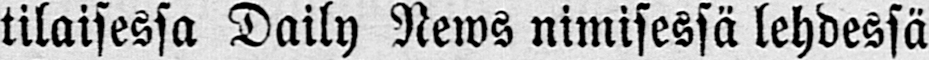tilaisessa Daily News nimisessä lehdessä
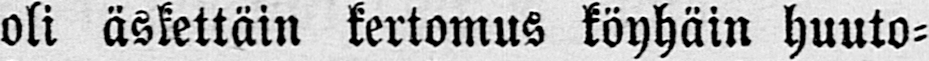oli äskettäin kertomus köyhäin huuto-
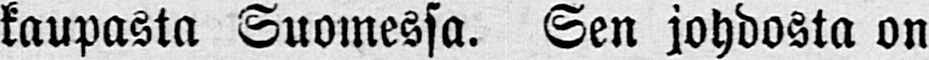kaupasta Suomessa. Sen johdosta on
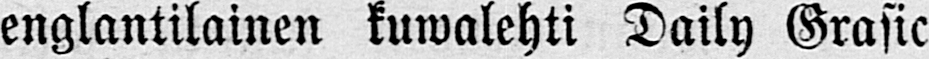englantilainen kuwalehti Daily Grasic
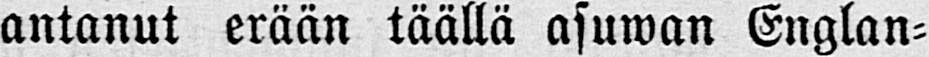antanut erään täällä asuwan Englan-
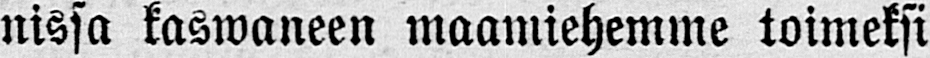nissa kaswaneen maamiehemme toimeksi
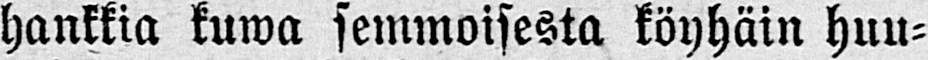hankkia kuwa semmoisesta köyhäin huu-
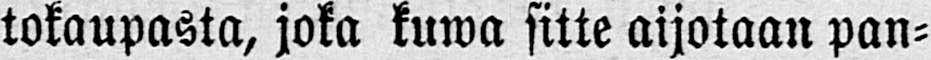tokaupasta, joka kuwa sitte aijotaan pan-
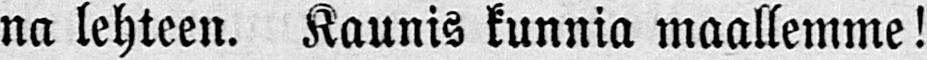na lehteen. Kaunis kunnia maallemme!
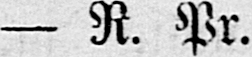— R. Pr.
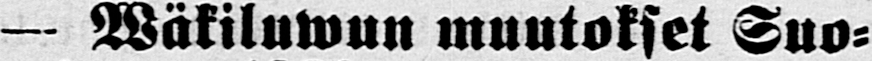- Wäkiluwun muutokset Suo-
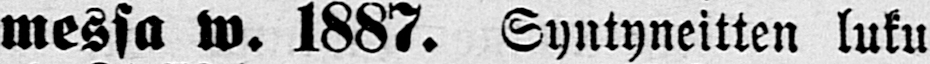messa w. 1887. Syntyneitten luku
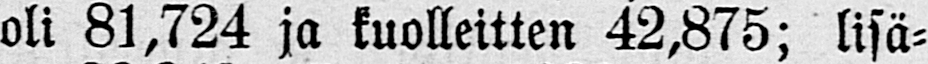oli 81,724 ja kuolleitten 42,875; lisä-
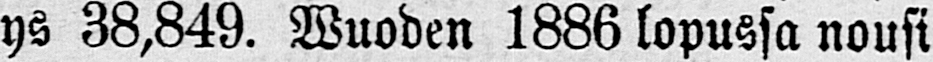ys 38,849. Wuoden 1886 lopussa nousi
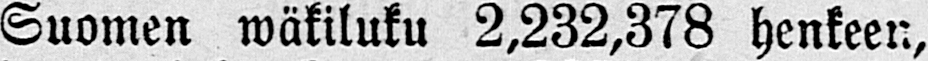Suomen wäkiluku 2,232,378 henkeen,
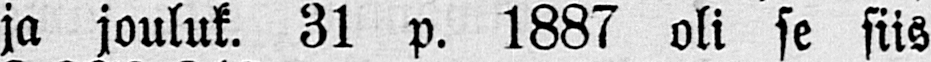ja jouluk. 31 p. 1887 oli se siis
